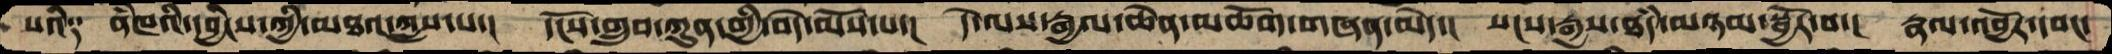པའི༑  ནཾཁའི་དབྱིངས་ཀྱི་མཐའ་ཀླས་པ་།  དངོས་གྲུབ་ཀུན་གྱི་བདེ་མོས་པ་།།  དེ་ལས་རྒྱལ་ཆེན་མཆོག་གཞན་མེད་།  སངས་རྒྱས་ཐཾད་མཉམ་སྦྱོར་བ་།  རྣལ་འབྱོར་དབང་
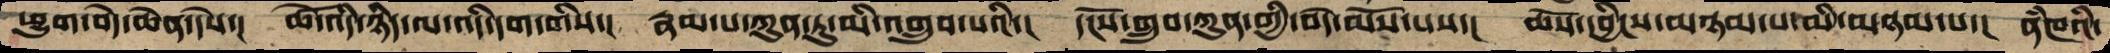ཕྱུག་བདེ་ཆེན་དེས་།  ཚེ་འདི་ཉིད་ལ་འདི་དག་གིས་།  རྣམ་པ་ཀུན་ཏུ་མི་འགྲུབ་པའི་།  དངོས་གྲུབ་ཀུན་གྱི་བདེ་མོས་པས་།  ཆོས་དབྱིངས་མཉམ་པ་མི་མཉམ་པ་།  ནཾཁའི་
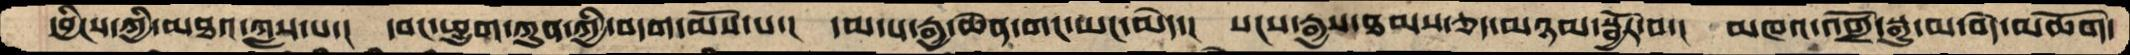དབྱིངས་ཀྱི་མཐའ་ཀླས་པ་།  དབང་ཕྱུག་ཀུན་ཀྱི་བདག་མོས་པ་།  དམ་པ་རྒྱ་ཆེན་གང་ཡང་མེད་།  སངས་རྒྱས་ཐམས་ཅད་མཉམ་སྦྱོར་བ་།།  མཁའ་འགྲོ་སྒྱུ་མ་བདེ་མཆོག་
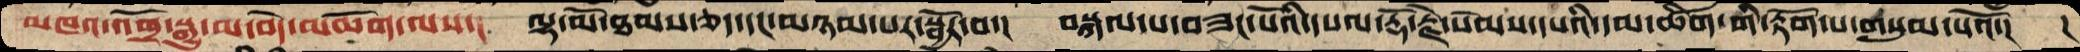མཁའ་འགྲོ་སྒྱུ་མ་བདེ་མཆོག་ལས་།  ལྷ་མོ་ཐམས་ཅད་དང་མཉམ་པར་སྦྱོར་བ་།  བསྐལ་པ་བཟང་པོའི་དཔལ་རྡོ་རྗེ་སེམས་དཔའི་དམ་ཚིག་གི་རྟོག་པ་གསུམ་པའོ་།  །
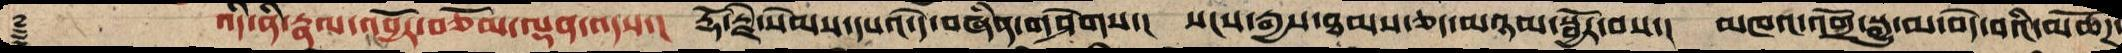࿑      འདི་ནི་རྣལ་འབྱོར་བཅོམ་ལྡན་འདས་།  རྡོ་རྗེ་སེམས་དཔའ་དེ་བཞིན་གཤེགས་།  སངས་རྒྱས་ཐམས་ཅད་མཉམ་སྦྱོར་བས་།  མཁའ་འགྲོ་སྒྱུ་མ་བདེ་བའི་མཆོཌ་
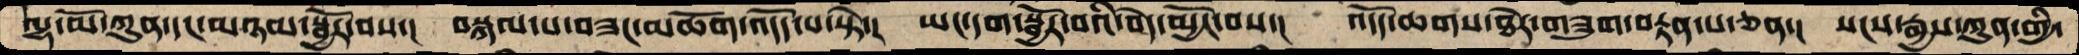ལྷ་མོ་ཀུན་དང་མཉམ་སྦྱོར་བས་།  བསྐལ་པ་བཟང་མཆོག་འདོད་པ་སྟེ་།  ཡང་དག་སྦྱོར་བའི་བདེ་མྱོང་བས་།  འདོད་ཆགས་ཐེར་གཟུག་བརྟན་པ་ཅན་།  སངས་རྒྱས་ཀུན་གྱི་
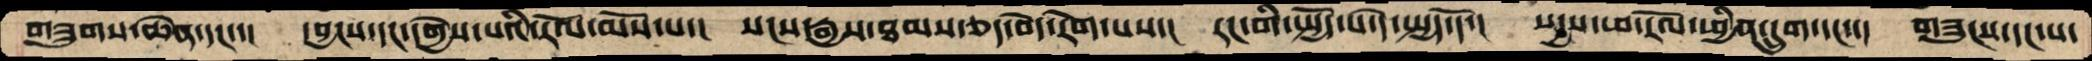གཟུགས་ཆེན་དང་་།  དབྱངས་དང་དགྱེས་པའི་རོལ་མོས་པ་།   སངས་རྒྱས་ཐམས་ཅད་བདེ་རེག་པས་།  རང་གི་སྤྱོད་པ་དེ་སྤྱད་དོ་།  སདྱས་ཕ་རོལ་ཕྱིན་དྲུག་དང་་།  གཟུངས་དང་ས་
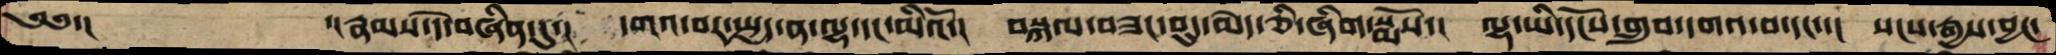༄༅་།       ་།རྣམས་དེ་བཞིན་དུ་།   དགའ་བར་སྤྱད་ན་ལྷ་དང་མིའོ་།  བསྐལ་བཟང་བུད་མེད་ཅི་ཞིག་སྨོས་།  ལྷ་ཡི་དངོས་གྲུབ་དགའ་བ་དང་་།  སངས་རྒྱས་བྱང་
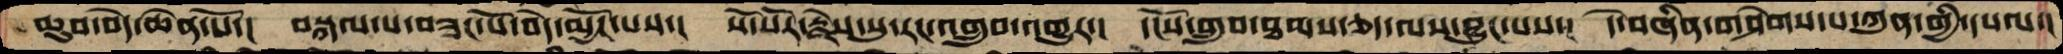ཆུབ་བདེ་ཆེན་པོ་།  བསྐལ་པ་བཟང་པོ་བདེ་མྱོང་པས་།  སོ་སོར་རྗེས་སུ་རང་འགྲུབ་འགྱུར་།  དངོས་གྲུབ་ཐམས་ཅད་ལས་བྱུང་བས་།  དེ་བཞིན་གཤེགས་པ་ཀུན་གྱི་དཔལ་།
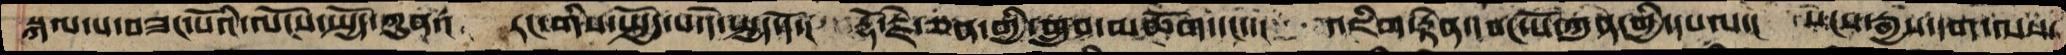སྐལ་པ་བཟང་པོའི་ལོངས་སྤྱོད་ཀུན་།  རང་གིས་སྤྱོད་པ་དེ་སྤྱད་དོ་།  རྡོ་རྗེ་ཅན་གྱི་གྲུབ་མཆོག་དང་་།  འཇིག་རྟེན་དབང་པོ་ཀུན་གྱི་དཔལ་།  སངས་རྒྱས་དག་ལས་
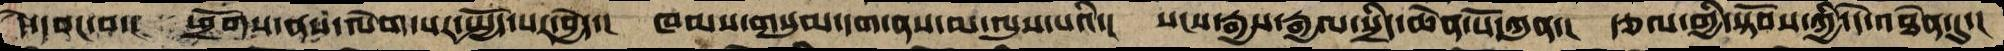དེ་དབང་བ་།  ཕྱོགས་ནས་ལེག་པར་སྤྱོད་པར་བྱེད་།  ཁམས་གསུམ་དག་ནས་མ་ལུས་པའི་།  སངས་རྒྱས་རྒྱལ་སྲིད་ཆེན་པོ་ཀུན་།   རྩལ་གྱི་སྟོབས་ཀྱི་དེ་འཐེན་དུ་།
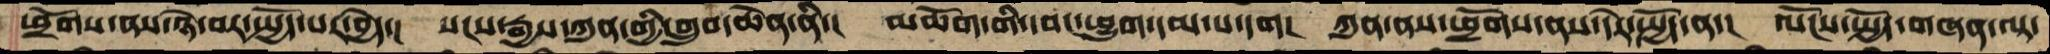ཕྲོགས་ནས་ཉེ་བར་སྤྱོད་པར་བྱེད་།  སངས་རྒྱས་ཀུན་གྱི་གྲུབ་ཆེན་ནི་།  མཆོག་གི་དབང་ཕྱུག་དམ་པ་དག།  ཀུན་ནས་ཕྱོགས་ནས་དེར་སྤྱོད་ན་།  ལོངས་སྤྱོད་གཞན་ལྟ་
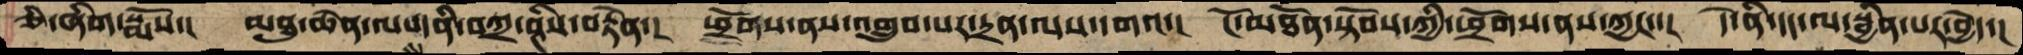ཅི་ཞིག་སྨོས་། མཐུ་ཆེན་ལས་ནི་བཀྲ་ཤིས་བརྟེན་། ཕྲོགས་ནས་འགྲུབ་པར་དྲན་ལས་དགའ་། ངོ་མཐོན་སྟོབས་ཀྱི་ཕྲོགས་ནས་ཀྱང་་། དེ་ནི་དད་ལ་སྦྱིན་པར་བྱེད་།
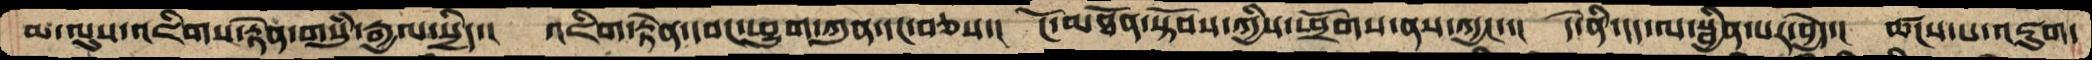མ་ལུས་འཇིགས་རྟེན་གསུཾ་རྒྱལ་སྲིད་།  འཇིག་རྟེན་དབང་ཕྱུག་ཀུན་དང་བཅས་།  ངོ་མཐོན་སྟོབས་ཀྱིས་ཕྲོགས་ནས་ཀྱང་་།  དེ་ནི་དད་ལ་སྦྱིན་པར་བྱེད་།  ཚངས་པ་འཇུག་
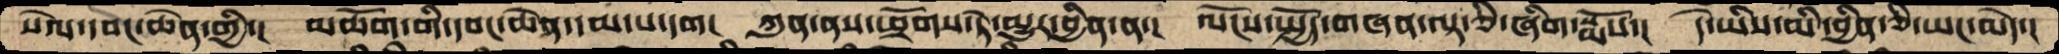སེལ་དབང་ཆེན་གྱི་།  མཆོག་གི་དབང་ཆེན་དམ་པ་དག།  ཀུན་ནས་ཕྲོགས་ཏེ་མྱུར་བྱིན་ན་།  ལོངས་སྤྱོད་གཞན་ལྟ་ཅི་ཞིག་སྨོས་།  དེ་ཡིས་མི་བྱིན་ཅི་ཡང་མེད་།
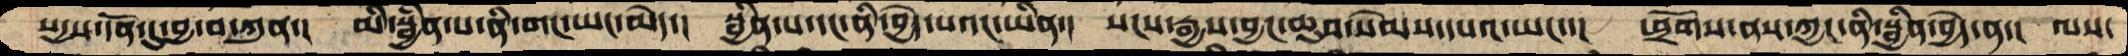སདྱས་དོན་དུ་བྱ་བ་ཀུན་།  མི་སྦྱིན་པ་ནི་གང་ཡང་མེད་།  སྦྱིན་པ་དང་ནི་བྱེད་པའང་ཡིན་།  སངས་རྒྱས་བྱང་ཆུབ་སེམས་དཔའ་ཡང་་།  ཕྲོགས་ནས་ཀྱང་ནི་སྦྱིན་བྱེད་ན་།  ལས་
